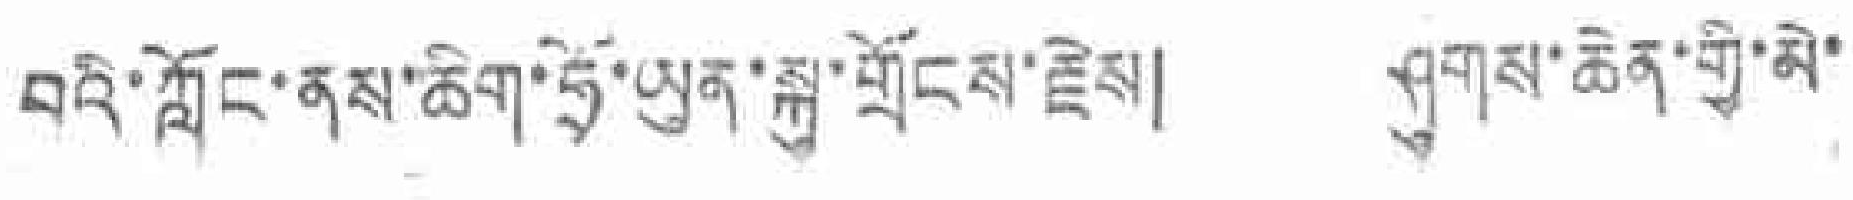བའི་ཀློང་ནས་ཆིག་ཧྲོ་ཡུན་སྐུ་གྲོངས་རྗེས། ཤུགས་ཆེན་གྱི་མེ་
